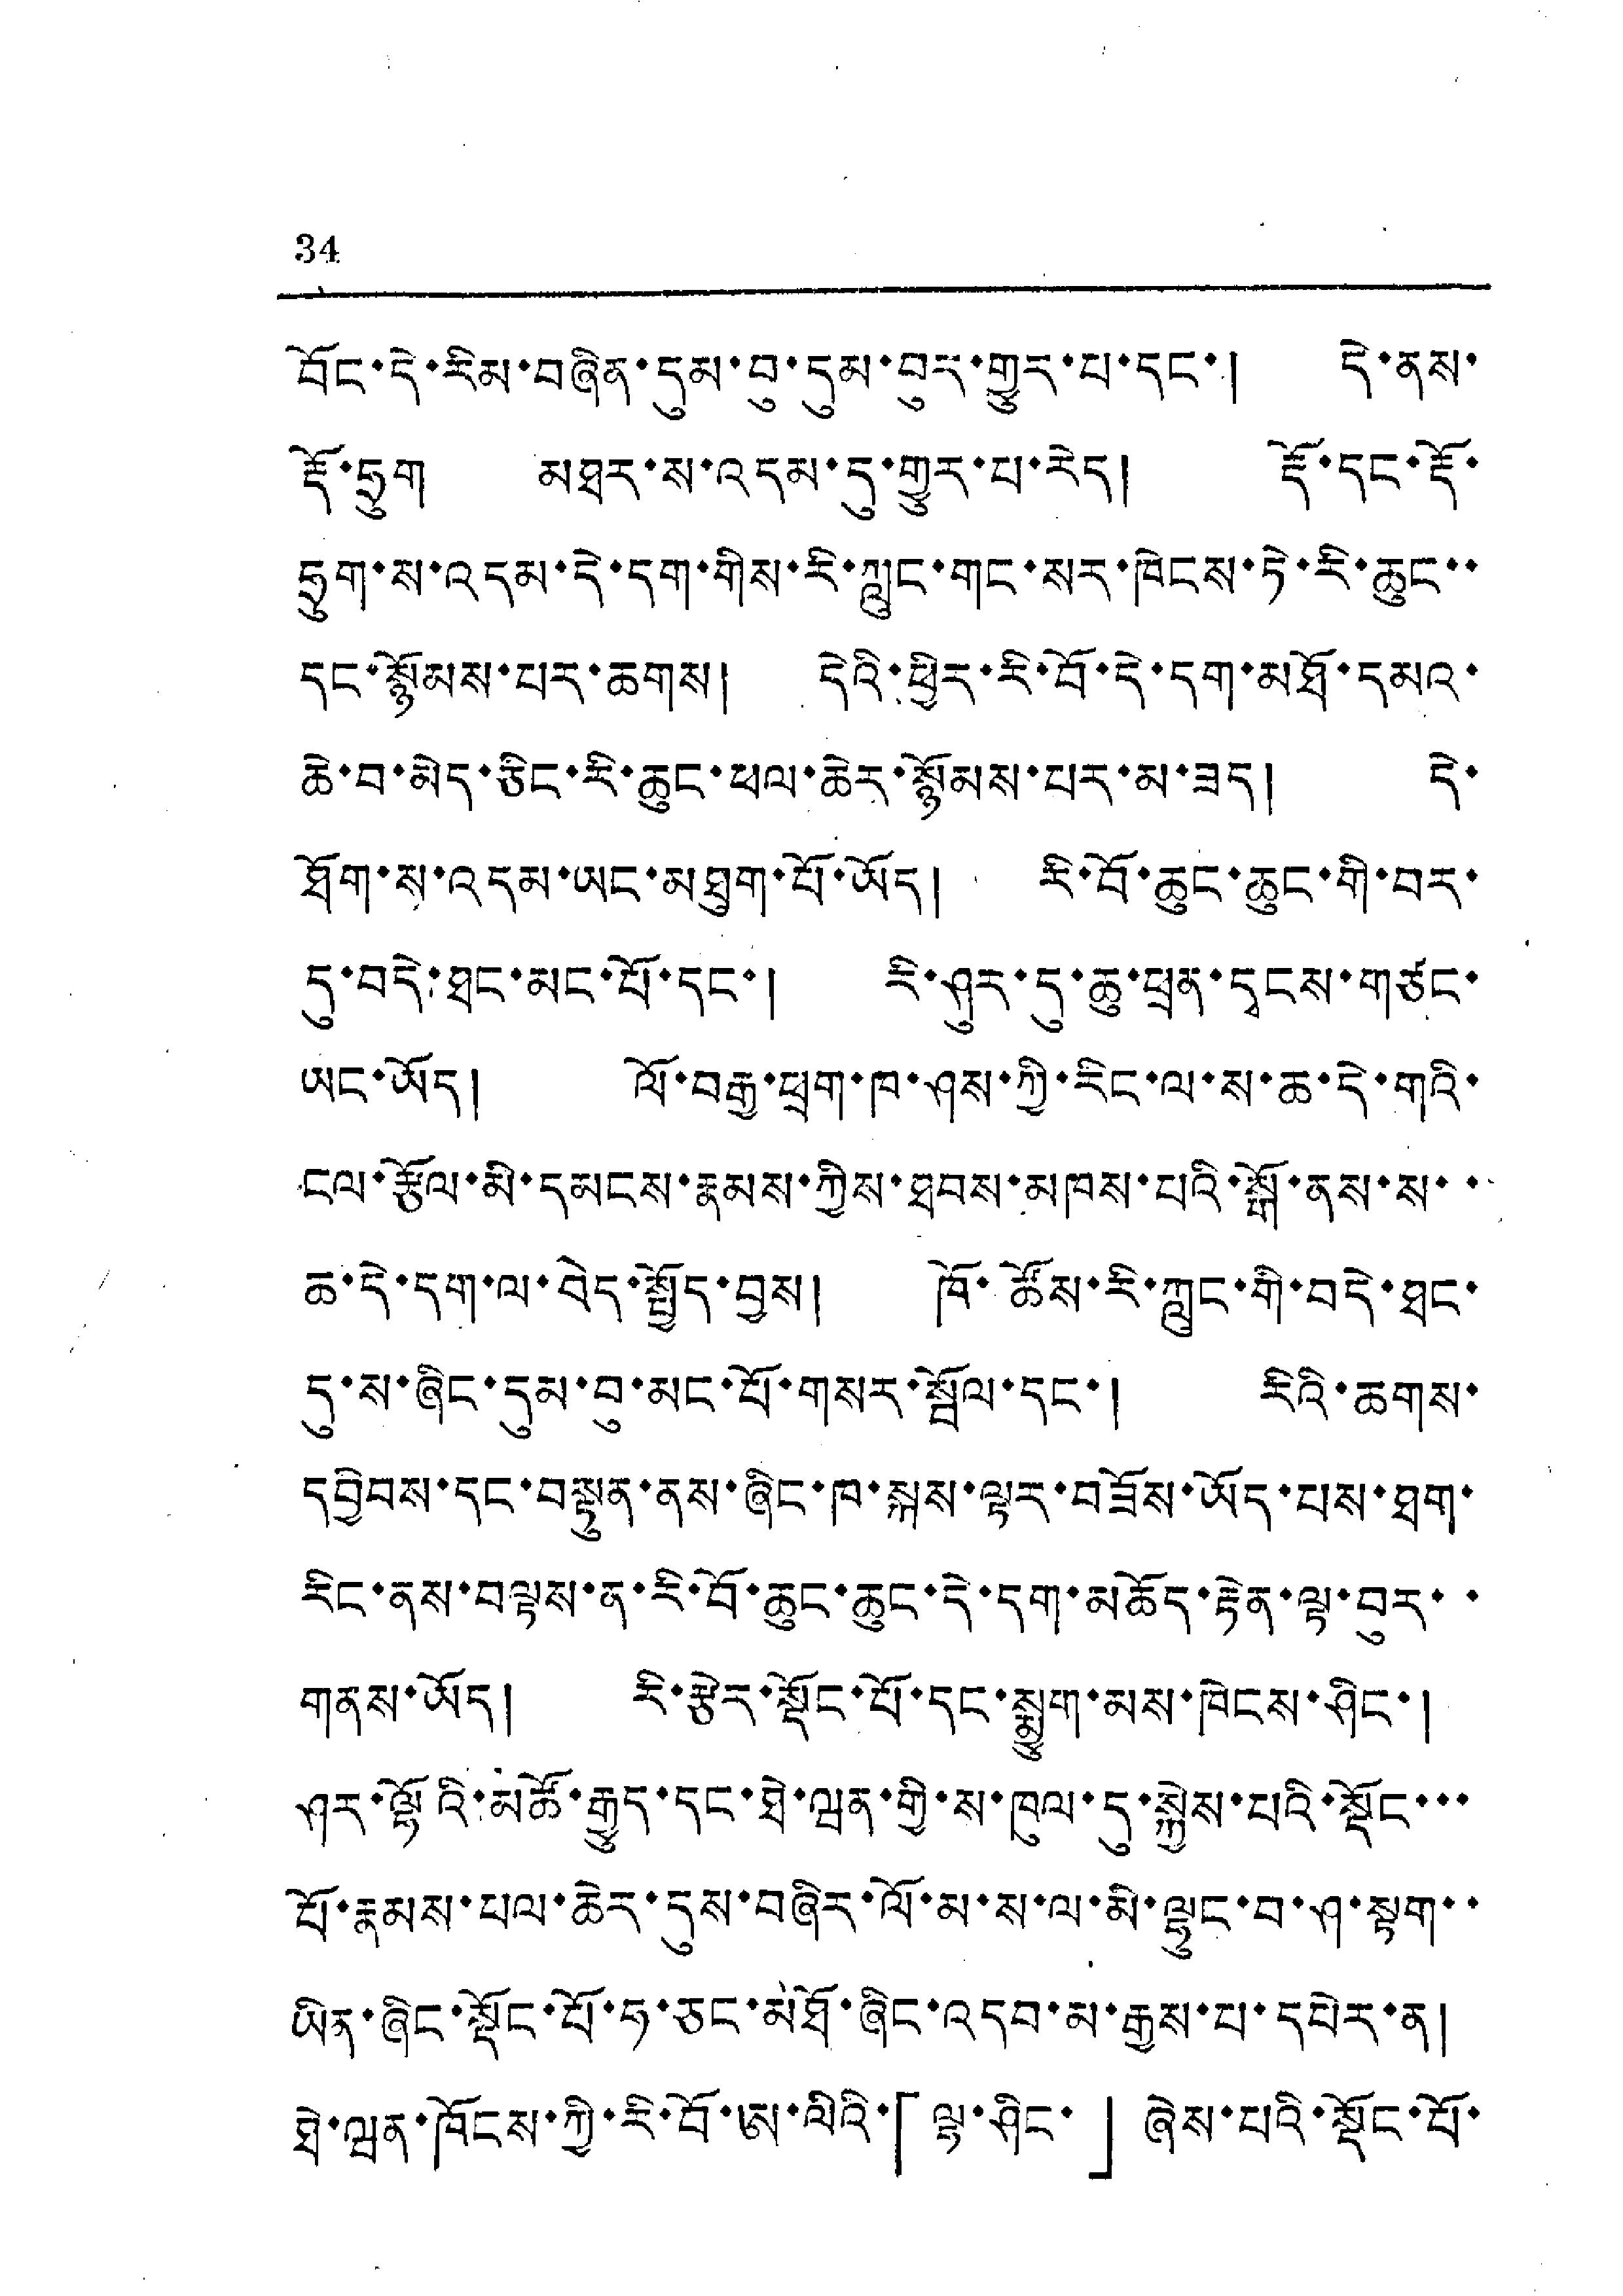34
བོང་དེ་རིམ་བཞིན་དུམ་བུ་དུམ་བུར་གྱུར་པ་དང་། དེ་ནས་
རྡོ་ཧྲུག མཐར་ས་འདམ་དུ་གྱུར་པ་རེད། རྡོ་དང་རྡོ་
ཧྲུག་ས་འདམ་དེ་དག་གིས་རི་ཀླུང་གང་སར་ཁེངས་ཏེ་རི་ཆུང་་
དང་སྙོམས་པར་ཆགས། དེའི་ཕྱིར་རི་བོ་དེ་དག་མཐོ་དམའ་
ཆེ་བ་མེད་ཅིང་རི་ཆུང་ཕལ་ཆེར་སྙོམས་པར་མ་ཟད། དེ་
ཐོག་ས་འདམ་ཡང་མཐུག་པོ་ཡོད། རི་བོ་ཆུང་ཆུང་གི་བར་
དུ་བདེ་ཐང་མང་པོ་དང་། རི་ཤུར་དུ་ཆུ་ཕྲན་དྭངས་གཙང་
ཡང་ཡོད། ལོ་བརྒྱ་ཕྲག་ཁ་ཤས་ཀྱི་རིང་ལ་ས་ཆ་དེ་གའི་
ངལ་རྩོལ་མི་དམངས་རྣམས་ཀྱིས་ཐབས་མཁས་པའི་སྒོ་ནས་ས་་
ཆ་དེ་དག་ལ་བེད་སྤྱོད་བྱས། ཁོ་ཚོས་རི་ཀླུང་གི་བདེ་ཐང་
དུ་ས་ཞིང་དུམ་བ་མང་པོ་གསར་སྦོལ་དང་། རིའི་ཆགས་
དབྱིབས་དང་བསྟུན་ནས་ཞིང་ཁ་སྐས་ལྟར་བཟོས་ཡོད་པས་ཐག་
རིང་ནས་བལྟས་ན་རི་བོ་ཆུང་ཆུང་དེ་དག་མཆོད་རྟེན་ལྷ་བུར་་་
གནས་ཡོད། རི་རྩེར་སྡོང་པོ་དང་སྨྱུག་མས་ཁེངས་ཤིང་།
ཤར་ལྷོའི་མཚོ་རྒྱུད་དང་ཐེ་ཝྲན་གྱི་ས་ཁུལ་དུ་སྐྱེས་པའི་སྡོང་་་
པོ་རྣམས་ཕལ་ཆེར་དུས་བཞིར་ལོ་མ་ས་ལ་མི་ལྷུང་བ་ཤ་སྟག་་
ཡིན་ཞིང་སྡོང་པོ་ཧ་ཅང་མཐོ་ཞིང་འདབ་མ་རྒྱས་པ་དཔེར་ན།
ཐེ་ཝན་ཁོངས་ཀྱི་རི་བོ་ཨ་ལིའི་「ལྷ་ཤིང་」ཞེས་པའི་སྡོང་པོ་
